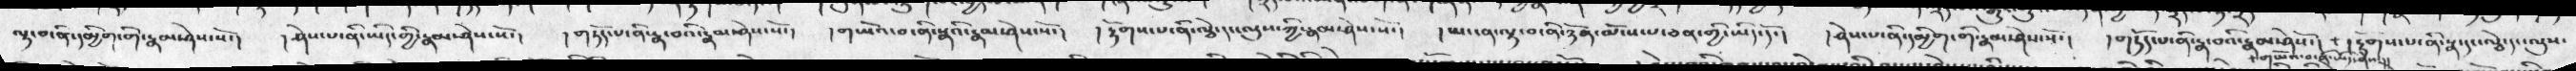ལྟ་བ་ནི་དམྱིག་གི་རྣམ་ཤེས་སོ་།  །ཤེས་པ་ནི་ཡིད་གྱི་རྣམ་ཤེས་སོ་།  ། གཏོད་པ་ནི་རྣ་བའི་རྣམ་ཤེས་སོ་།  །གཡོ་བ་ནི་སྣའི་རྣམ་ཤེས་སོ་།  །རྟོགས་པ་ནི་ལྕེ་དང་ལུས་ཀྱི་རྣམ་ཤེས་སོ་།   །ཡང་ན་ལྟ་བ་ནི་ཉོན་མོངས་པ་ཅན་གྱི་ཡིད་དོ་།  །ཤེས་པ་ནི་དམྱིག་གི་རྣམ་ཤེས་སོ་།  །གཏོད་པ་ནི་རྣ་བའི་རྣམ་ཤེས་སོ་།  གཡོའ་བ་ནི་ཡིད་ཤེས་།། །རྟོགས་པ་ནི་སྣ་དང་ལྕེ་དང་ལུས་
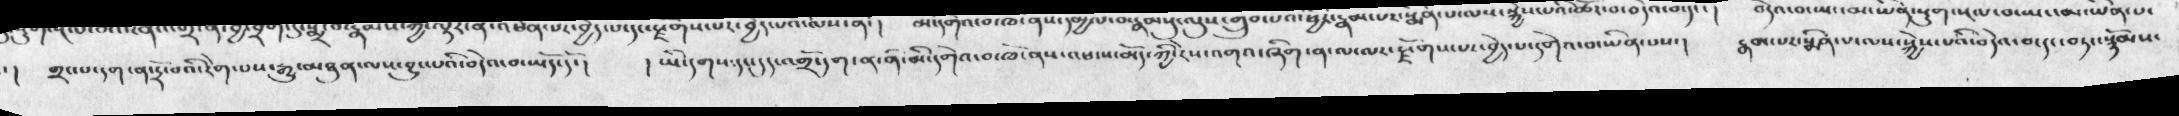།   གྲང་པདག་ན་དྲོ་བའི་རེག་པས་རྒྱུན་མཐུན་ལས་བྱུང་པའི་བདེའ་བ་ཡོད་དོ་།  ། ཡི་དགས་དང་དུད་འགྲོ་དག་ན་ནི་མི་དགེའ་བ་ཁོ་ནས་འཕངས་མོད་ཀྱི་རེ་འགའ་ཞིག་ན་ལ་ལར་རྫོགས་པར་བྱེད་པ་དགེའ་བ་ཡིན་པས་།  རྣམ་པར་སྨིན་པ་ལས་སྐྱེས་པའི་བདེའ་བ་དང་བཏང་སྙོམས་
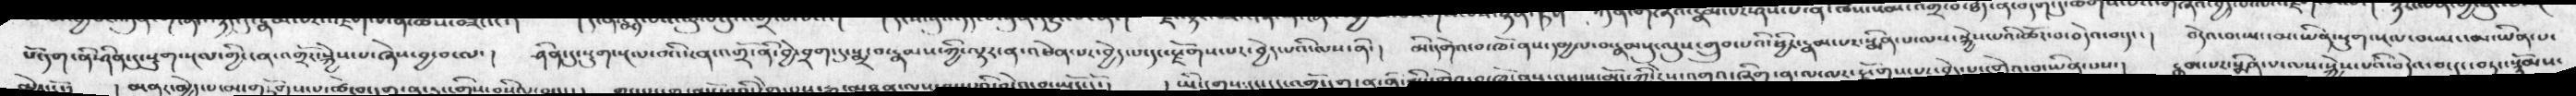པོ་དག་ནི་ཤིན་དུ་སྡུག་སྔལ་གྱི་ངན་འགྲོར་སྐྱེས་པ་ཞེས་བྱ་བ་ལ་།  ཤིན་དུ་སྡུག་སྔལ་བའི་ངན་འགྲོ་ནི་བྱེ་བྲག་དུ་སྨྲ་བ་རྣམས་ཀྱི་ལྟར་ན་འཕེན་པར་བྱེད་པ་དང་རྫོགས་པར་བྱེད་པའི་ལས་ནི་།  མི་དགེའ་བ་ཁོ་ནས་དམྱལ་བ་རྣམསུ་ལུས་གྲུབ་པའི་ཕྱིར་རྣམ་པར་སྨིན་པ་ལས་སྐྱེས་པའི་ཚོར་བ་བདེའ་་བ་དང་།   བདེའ་བ་ཡང་མ་ཡིན་སྡུག་སྔལ་བ་ཡང་མ་ཡིན་པ་
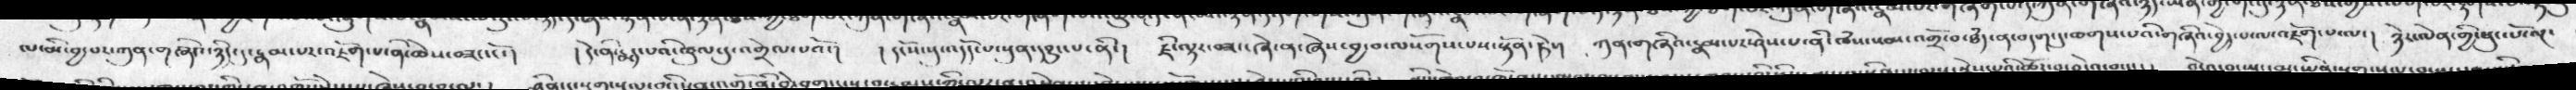ལ་མི་བྱ་པར་ཀུན་གཞིའ་གཞི་ཉིད་དུ་རྣམ་པར་འཇོག་པ་ནེ་ཆེས་བཟང་ངོ་།  ། དེ་ནི་རྨད་པའི་ཚུལ་དུ་འགྲེལ་པའོ་།  ། དངོས་སུ་འདོད་པ་སུན་དབྱུང་པ་ནི་།  ཇི་ལྟར་བཟང་ཞེ་ན་ཞེས་བྱ་བ་ལསོགས་པས་སྟོན་ཏེ་།  ཀུན་གཞིའ་རྣམ་པར་ཤེས་པ་ནི་ཁཾས་སམ་འགྲོ་བ་ཐཾད་ན་བདག་དུ་ཆགས་པའི་གཞིའ་བྱེད་པ་ལ་འཇོག་པ་ལ་།  ཉེར་ལེན་གྱི་ཕུང་པོ་ལྔ་
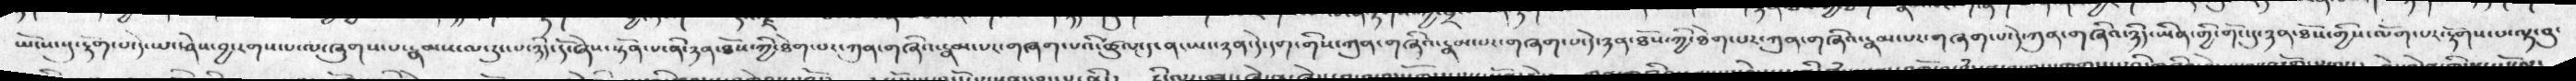ཡོངས་སུ་རྟོག་པ་དེ་ལ་ཤེས་བྱ་རགས་པ་ལ་ཞུགས་པ་རྣམས་མ་རུང་པ་ཉིད་དོ་ཞེས་སྟོན་པ་ནི་ཉན་ཐོས་ཀྱི་ཐེག་པར་ཀུན་གཞི་རྣམ་པར་གཞག་པའི་ཚུལ་དུ་ན་ཡང་ཉན་དེ་དག་གིས་ཀུན་གཞིའ་རྣམ་པར་གཞག་པ་དེ་ཉན་ཐོས་ཀྱི་ཐེག་པར་ཀུན་གཞིའ་རྣམ་པར་གཞག་པ་དེ་ཀུན་གཞིའ་ཉིད་ཡིན་གྱི་གོང་དུ་ཉན་ཐོས་གྱིས་ལོག་པར་རྟོགས་པ་ལྟ་བུ་
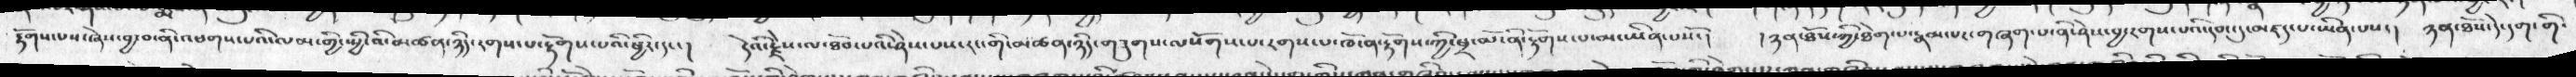རྟོགས་པས་ཞེས་བྱ་བ་ནི་འཕགས་པའི་ལམ་གྱི་སྤྱི་འི་མཚན་ཉིད་རགས་པ་རྟོགས་པའི་ཕྱིར་དང་།  དེའི་རྗེས་ལ་ཐོབ་པའི་ཤེས་པས་རང་གི་མཚན་ཉིད་གཟུགས་ལསོགས་པ་རགས་པ་ཁོ་ན་རྟོགས་ཀྱི་ཕྲ་མོ་ནི་རྟོགས་པ་མ་ཡིན་པསོ་།  ། ཉན་ཐོས་ཀྱི་ཐེག་པ་རྣམ་པར་གཞག་པ་ནི་ཤེས་བྱ་རགས་པའི་དབང་དུ་མཛད་པ་ཡིན་པས་།  ཉན་ཐོས་དེ་དག་གི་
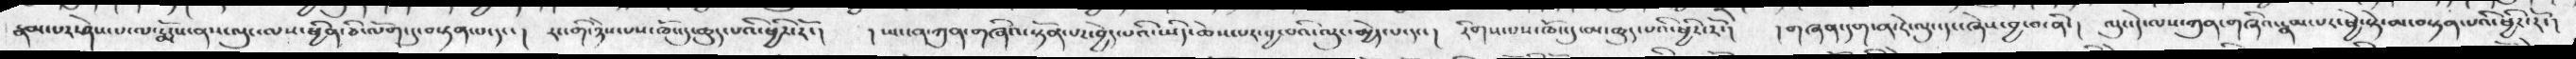རྣམ་པར་ཤེས་པ་ལ་རྨོས་ནས་ལུང་ལས་ཕྱིན་ཅི་ལོག་དུ་བསྟན་པ་དང་།  རང་གི་ཉེས་པས་ཁོང་དུ་ཆུད་པའི་ཕྱིར་རོ་།  ། ཡང་ན་ཀུན་གཞིའ་སྟོན་པར་བྱེད་པའི་ཡིད་ཆེས་པར་བྱ་བའི་ལུང་མྱེད་པ་དང་།   རིགས་པས་ཁོང་དུ་མ་ཆུད་པའི་ཕྱིར་རོ་།  །གཞན་དག་ན་རེ་ལུང་དང་ཞེས་བྱ་བ་ནི་།  ལུང་དེ་ལས་ཀུན་གཞིའ་རྣམ་པར་ཕྱི་སྟེ་མ་བསྟན་པའི་ཕྱིར་རོ་།
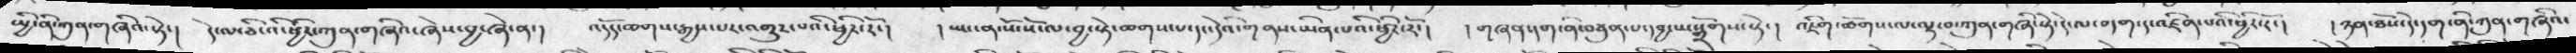ཡྱི་ནི་གུན་གཞའི་སྟེ་།   དེ་ལ་ཅི་འི་ཕྱིར་གུན་གཞིའ་ཞེས་བྱ་ཞེ་ན་།   འདོད་ཆགས་རྒྱས་པར་འགྱུར་པའི་ཕྱིར་རོ་།   །  ཡང་ན་སོ་སོ་ལ་བྱ་སྟེ་ཆགས་པ་དང་དེའི་དེའི་གནས་ཡིན་པའི་ཕྱིར་རོ་།  ། གཞན་དག་ནི་བཙུན་པ་དབྱངས་སྒྲོགས་སྟེ་།  འཇིག་ཚོགས་ལ་ལྟ་བ་ཀུན་གཞི་སྟེ་དེ་ལ་བདག་དུ་འཛིན་པའི་ཕྱིར་རོ་།   ། ཉན་ཐོས་དེ་དག་ནི་ཀུན་གཞིའ་
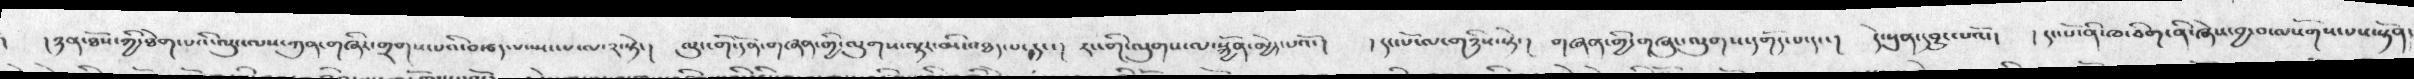།ཉན་ཐོས་ཀྱི་ཐེག་པའི་ལུང་ལས་ཀུན་གཞིར་གྲགས་པའི་བརྩད་པ་སྤང་ལ་༢་སྟེ་།  ལུང་གི་དོན་གཞན་གྱི་ལུགས་ལྟར་མི་འཐད་པ་དང་།  རང་གི་ལུགས་ལ་སྐྱོན་མྱེད་པའོ་།  ། དང་པོ་ལ་གཉིས་སྟེ་།   གཞན་གྱི་གཞུང་ལུགས་དགོད་པ་དང་།  དེ་སུན་དབྱུང་པའོ་།  ། དང་པོ་ནི་ཁ་ཅིག་ནི་ཞེས་བྱ་བ་ལསོགས་པས་སྟོན་
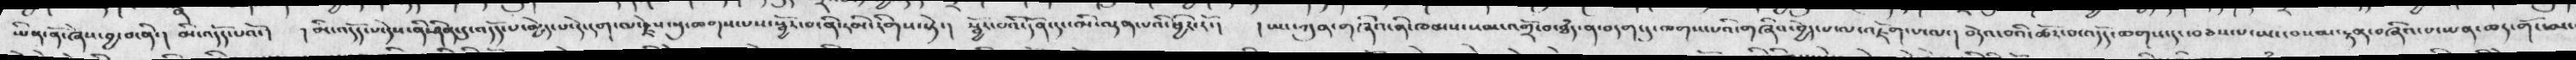ཡིན་ནོ་ཞེས་བྱ་བ་ནི་།   མི་འདོད་པའོ་།   ། མི་འདོད་པ་དེས་ནི་རྟེན་དུ་འདོད་པ་མྱེད་པ་དེ་དག་ལ་རྗེས་སུ་ཆགས་པས་སྦྱོར་བ་ནི་མི་རིགས་སྟེ་།  སྦྱོར་པའི་དོན་དུ་མི་ལྡན་པའི་ཕྱིར་རོ་།  ། ཡང་ཀུན་གཞིའ་ནི་ཁམས་སམ་འགྲོ་བ་ཐཾད་ན་བདག་དུ་ཆགས་པའི་གཞིས་བྱེད་པ་ལ་འཇོག་པ་དང་  བདེའ་བའི་ཚོར་བ་འདོད་ཆགས་དང་བཅས་པ་ཡང་བསམ་རྟན་བཞིའ་པ་ཡན་ཆད་གོང་མ་
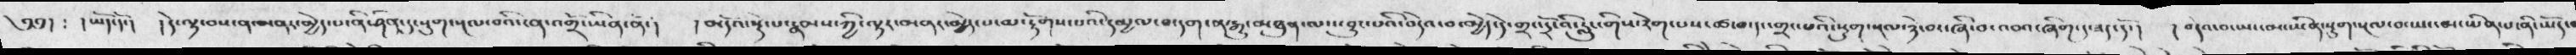༅༅ ། ༴ ། ཡོད་དོ་།   ། དེ་ལྟ་བས་ན་མནར་མྱེད་པ་ནི་ཤིན་དུ་སྡུག་སྔལ་བའི་ངན་འགྲོ་ཡིན་ནོ་།   ། མདོའ་སྡེ་པ་རྣམས་ཀྱི་ལྟར་མནར་མྱེད་པ་མ་རྟོགས་པའི་དམྱལ་བ་དག་ན་རྒྱུ་མཐུན་ལས་བྱུང་པའི་བདེའ་བ་མྱེད་དེ་གྲང་དྲོ་འི་རླུང་གིས་རེག་པས་ཚ་བ་དང་གྲང་བའི་སྡུག་སྔལ་ཉེ་བ་འབའ་ཞིག་དུ་ཟད་དོ་།   ། བདེའ་བ་ཡང་མ་ཡིན་སྡུག་སྔལ་བ་ཡང་མ་ཡིན་པ་ནི་ཡོད་
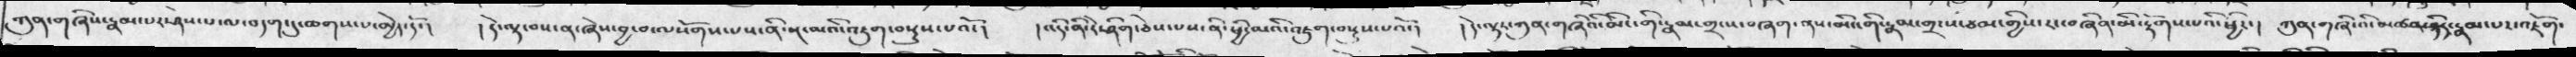ཀུན་གཞིས་རྣམ་པར་ཤེས་པ་ལ་བདག་དུ་ཆགས་པ་མྱེད་དོ་།   ། དེ་ལྟ་བས་ན་ཞེས་བྱ་བ་ལསོགས་པས་ནི་སྔ་མའི་འཇུག་བསྡུས་པའོ་།   ། འདི་ནི་རེ་ཤིག་ཅེས་པས་ནི་ཕྱི་མའི་འཇུག་བསྡུས་པའོ་།   ། དེ་ལྟར་ཀུན་གཞིའ་མིང་གི་རྣམ་གྲངས་བཞག་ནས་མིང་གི་རྣམ་གྲངས་ཙམ་གྱིས་རང་བཞིན་མི་རྟོགས་པའི་ཕྱིར་།  ཀུན་གཞིའི་མཚན་ཉིད་རྣམ་པར་འཇོག་
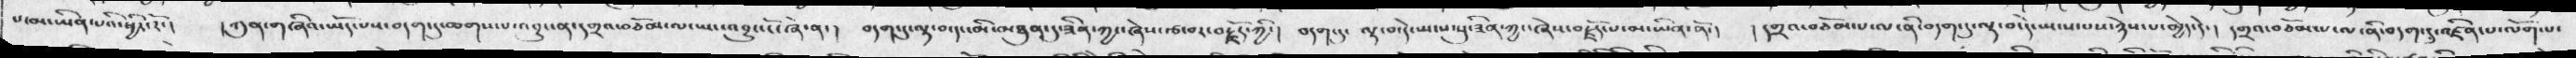པ་མ་ཡིན་པའི་ཕྱིར་རོ་།   ། ཀུན་གཞིའ་ཡོད་པས་བདག་དུ་ཆགས་པ་འབྱུང་ན་དགྲའ་བཅོམ་ལ་ཡང་འབྱུང་ངོ་ཞེ་ན་།  བདག་དུ་ལྟ་བ་དང་མི་མཐུན་དུ་ཟིན་ཀྱང་ཞེས་རྩ་བར་བརྗོད་ཀྱི་།   བདག་དུ་  ལྟ་བ་དེ་ཡངས་སུ་ཟིན་ཀྱང་ཞེས་བརྗོད་པ་མ་ཡིན་ནོ་།   ། དགྲའ་བཅོམ་པ་ལ་ནི་བདག་དུ་ལྟ་བ་དེ་སྤངས་པས་ཉེས་པ་མྱེད་དེ་།   དགྲའ་བཅོམ་པ་ལ་ནི་བདག་དུ་འཛིན་པ་ལོག་པ་
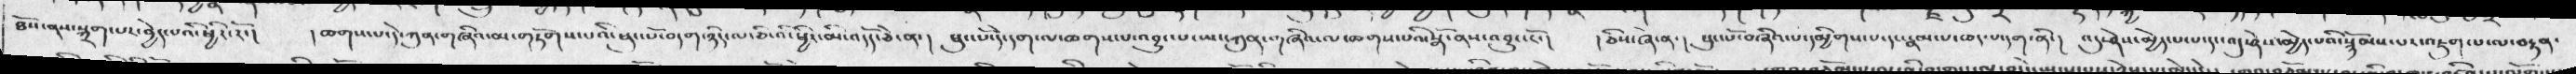ཐོས་ནས་སྐྲག་པར་བྱེད་པའི་ཕྱིར་རོ་།  ། ཆགས་པ་དེ་ཀུན་གཞིའ་མ་གཏོགས་པའི་ཕུང་པོ་བདག་ཉིད་ལ་ཅིའི་ཕྱིར་མི་འདོད་ཅེ་ན་།  ཕུང་པོ་དེ་དག་ལ་ཆགས་པ་འབྱུང་པ་ཡང་ཀུན་གཞིའ་ལ་ཆགས་པའི་སྒོ་ནས་འབྱུང་ངོ་།  །ཅིས་ཞེ་ན་།  ཕུང་པོ་བཞིའ་པ་དམྱིགས་པ་དང་རྣམ་པ་ཆད་པ་དག་ནི་།  འདུ་ཤེས་མྱེད་པ་པ་དང་འདུ་ཤེས་མྱེད་པའི་སྙོམས་པར་འཇུག་པ་ལ་བརྟན་
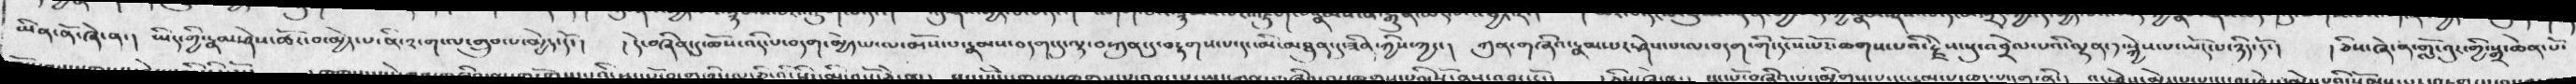ཡིན་ནོ་ཞེ་ན་།  ཡིད་ཀྱི་རྣམ་ཤེས་ཚོར་བ་མྱེད་པ་ནི་༢་ག་ལ་གྲུབ་པ་མྱེད་དོ་།  ། དེ་བཞིན་དུ་ཆོས་འདི་པ་བདག་མྱེད་པ་ལ་མོས་པ་རྣམས་བདག་དུ་ལྟ་བ་ཀུན་དུ་བརྟགས་པ་དང་མི་མཐུན་དུ་ཟིན་གྱིས་ཀྱང་།  ཀུན་གཞིའ་རྣམ་པར་ཤེས་པ་ལ་བདག་གི་དངོས་པོར་ཆགས་པའི་རྗེས་སུ་འབྲེལ་པའི་ལྷན་༡་སྐྱེས་པ་ཡོད་པ་ཉིད་དོ་།  ། ཅིས་ཞེ་ན་གློ་བུར་གྱི་སྒྲ་ཆེན་པོ་
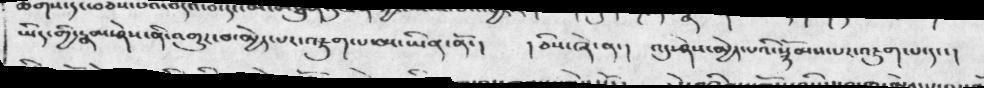ཡིད་གྱི་རྣམ་ཤེས་ནི་འགྱུར་བ་མྱེད་པར་འཇུག་པ་མ་ཡིན་ནོ་།   །ཅིས་ཞེ་ན་།   འདུ་ཤེས་མྱེད་པའི་སྙོམས་པར་འཇུག་པ་དང་།
